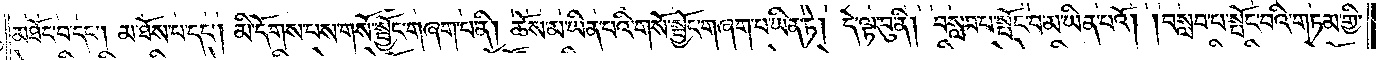མཐོང་བ་དང༌། མ་ཐོས་པ་དང༌། མི་དོགས་པས་གསོ་སྦྱོང་གཞག་པ་ནི། ཆོས་མ་ཡིན་པའི་གསོ་སྦྱོང་གཞག་པ་ཡིན་ཏེ། དེ་ལྟ་བུ་ནི། བསླབ་པ་སྤོང་བ་མ་ཡིན་པའོ། །བསླབ་པ་སྤོང་བའི་གཏམ་གྱི་
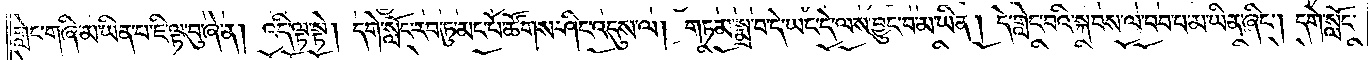གླེང་གཞི་མ་ཡིན་པ་ཇི་ལྟ་བུ་ཞེ་ན། འདི་ལྟ་སྟེ། དགེ་སློང་རབ་ཏུ་མང་པོ་ཚོགས་ཤིང་འདུས་ལ། གཏམ་སྨྲ་བ་དེ་ཡང་དེ་ལས་བྱུང་བ་མ་ཡིན། དེ་གླེང་བའི་སྐབས་ལ་བབ་པ་མ་ཡིན་ཞིང༌། དགེ་སློང་
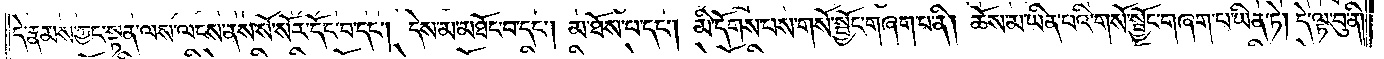དེ་རྣམས་ཀྱང་སྟན་ལས་ལངས་ནས་སོ་སོར་དོང་བ་དང༌། དེས་མ་མཐོང་བ་དང༌། མ་ཐོས་པ་དང༌། མི་དོགས་པས་གསོ་སྦྱོང་གཞག་པ་ནི། ཆོས་མ་ཡིན་པའི་གསོ་སྦྱོང་གཞག་པ་ཡིན་ཏེ། དེ་ལྟ་བུ་ནི།
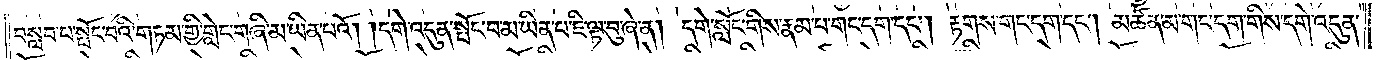བསླབ་པ་སྤོང་བའི་གཏམ་གྱི་གླེང་གཞི་མ་ཡིན་པའོ། །དགེ་འདུན་སྤོང་བ་མ་ཡིན་པ་ཇི་ལྟ་བུ་ཞེ་ན། དགེ་སློང་གིས་རྣམ་པ་གང་དག་དང༌། རྟགས་གང་དག་དང༌། མཚན་མ་གང་དག་གིས་དགེ་འདུན་
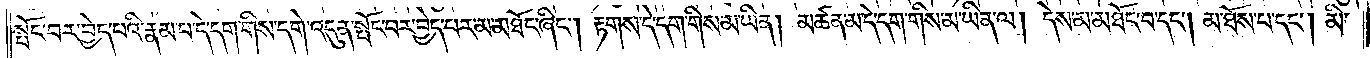སྤོང་བར་བྱེད་པའི་རྣམ་པ་དེ་དག་གིས་དགེ་འདུན་སྤོང་བར་བྱེད་པར་མ་མཐོང་ཞིང༌། རྟགས་དེ་དག་གིས་མ་ཡིན། མཚན་མ་དེ་དག་གིས་མ་ཡིན་ལ། དེས་མ་མཐོང་བ་དང༌། མ་ཐོས་པ་དང༌། མི་
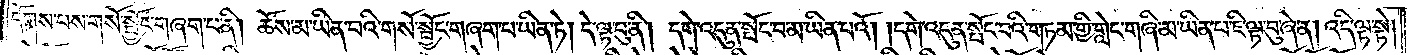དོགས་པས་གསོ་སྦྱོང་གཞག་པ་ནི། ཆོས་མ་ཡིན་པའི་གསོ་སྦྱོང་གཞག་པ་ཡིན་ཏེ། དེ་ལྟ་བུ་ནི། དགེ་འདུན་སྤོང་བ་མ་ཡིན་པའོ། །དགེ་འདུན་སྤོང་བའི་གཏམ་གྱི་གླེང་གཞི་མ་ཡིན་པ་ཇི་ལྟ་བུ་ཞེ་ན། འདི་ལྟ་སྟེ།
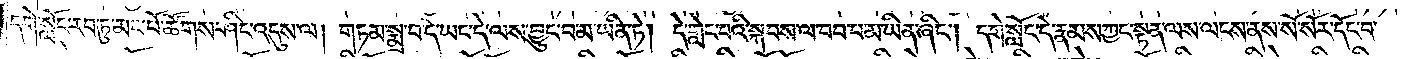དགེ་སློང་རབ་ཏུ་མང་པོ་ཚོགས་ཤིང་འདུས་ལ། གཏམ་སྨྲ་བ་དེ་ཡང་དེ་ལས་བྱུང་བ་མ་ཡིན་ཏེ། དེ་གླེང་བའི་སྐབས་ལ་བབ་པ་མ་ཡིན་ཞིང༌། དགེ་སློང་དེ་རྣམས་ཀྱང་སྟན་ལས་ལངས་ནས་སོ་སོར་དོང་བ་
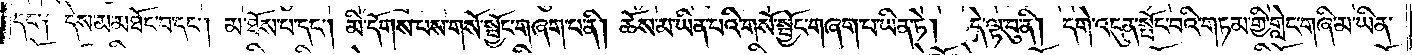དང༌། དེས་མ་མཐོང་བ་དང༌། མ་ཐོས་པ་དང༌། མི་དོགས་པས་གསོ་སྦྱོང་གཞག་པ་ནི། ཆོས་མ་ཡིན་པའི་གསོ་སྦྱོང་གཞག་པ་ཡིན་ཏེ། དེ་ལྟ་བུ་ནི། དགེ་འདུན་སྤོང་བའི་གཏམ་གྱི་གླེང་གཞི་མ་ཡིན་
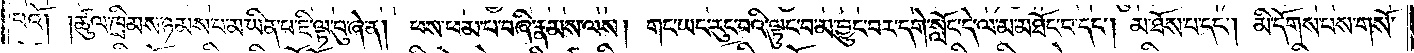པའོ། །ཚུལ་ཁྲིམས་ཉམས་པ་མ་ཡིན་པ་ཇི་ལྟ་བུ་ཞེ་ན། ཕས་ཕམ་པ་བཞི་རྣམས་ལས། གང་ཡང་རུང་བའི་ལྟུང་བ་མ་བྱུང་བར་དགེ་སློང་དེ་ལ་མ་མཐོང་བ་དང༌། མ་ཐོས་པ་དང༌། མི་དོགས་པས་གསོ་
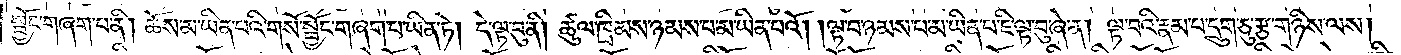སྦྱོང་གཞག་པ་ནི། ཆོས་མ་ཡིན་པའི་གསོ་སྦྱོང་གཞག་པ་ཡིན་ཏེ། དེ་ལྟ་བུ་ནི། ཚུལ་ཁྲིམས་ཉམས་པ་མ་ཡིན་པའོ། །ལྟ་བ་ཉམས་པ་མ་ཡིན་པ་ཇི་ལྟ་བུ་ཞེ་ན། ལྟ་བའི་རྣམ་པ་དྲུག་ཅུ་རྩ་གཉིས་ལས།
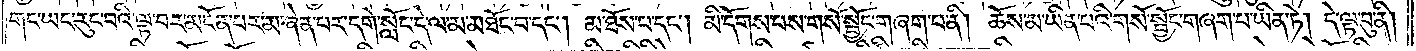གང་ཡང་རུང་བའི་ལྟ་བར་མངོན་པར་མ་ཞེན་པར་དགེ་སློང་དེ་ལ་མ་མཐོང་བ་དང༌། མ་ཐོས་པ་དང༌། མི་དོགས་པས་གསོ་སྦྱོང་གཞག་པ་ནི། ཆོས་མ་ཡིན་པའི་གསོ་སྦྱོང་གཞག་པ་ཡིན་ཏེ། དེ་ལྟ་བུ་ནི།
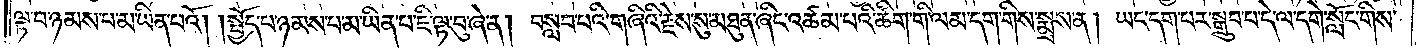ལྟ་བ་ཉམས་པ་མ་ཡིན་པའོ། །སྤྱོད་པ་ཉམས་པ་མ་ཡིན་པ་ཇི་ལྟ་བུ་ཞེ་ན། བསླབ་པའི་གཞི་རྗེས་སུ་མཐུན་ཞིང་འཚམ་པའི་ཚིག་གི་ལམ་དག་གིས་སྨྲས་ན། ཡང་དག་པར་སྒྲུབ་པ་དེ་ལ་དགེ་སློང་གིས་
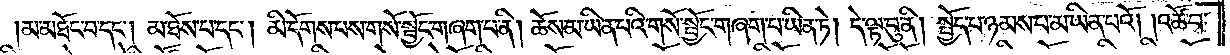མ་མཐོང་བ་དང༌། མ་ཐོས་པ་དང༌། མི་དོགས་པས་གསོ་སྦྱོང་གཞག་པ་ནི། ཆོས་མ་ཡིན་པའི་གསོ་སྦྱོང་གཞག་པ་ཡིན་ཏེ། དེ་ལྟ་བུ་ནི། སྤྱོད་པ་ཉམས་པ་མ་ཡིན་པའོ། །འཚོ་བ་
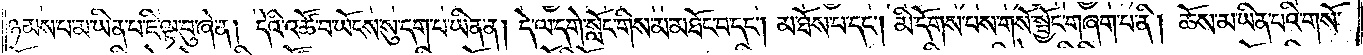ཉམས་པ་མ་ཡིན་པ་ཇི་ལྟ་བུ་ཞེ་ན། དེའི་འཚོ་བ་ཡོངས་སུ་དག་པ་ཡིན་ན། དེ་ལ་དགེ་སློང་གིས་མ་མཐོང་བ་དང༌། མ་ཐོས་པ་དང༌། མི་དོགས་པས་གསོ་སྦྱོང་གཞག་པ་ནི། ཆོས་མ་ཡིན་པའི་གསོ་
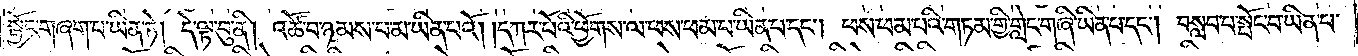སྦྱོང་གཞག་པ་ཡིན་ཏེ། དེ་ལྟ་བུ་ནི། འཚོ་བ་ཉམས་པ་མ་ཡིན་པའོ། །དཀར་པོའི་ཕྱོགས་ལ་ཕས་ཕམ་པ་ཡིན་པ་དང༌། ཕས་ཕམ་པའི་གཏམ་གྱི་གླེང་གཞི་ཡིན་པ་དང༌། བསླབ་པ་སྤོང་བ་ཡིན་པ་
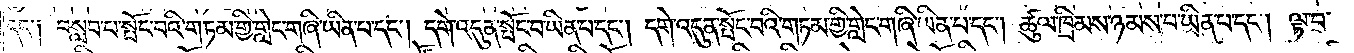དང༌། བསླབ་པ་སྤོང་བའི་གཏམ་གྱི་གླེང་གཞི་ཡིན་པ་དང༌། དགེ་འདུན་སྤོང་བ་ཡིན་པ་དང༌། དགེ་འདུན་སྤོང་བའི་གཏམ་གྱི་གླེང་གཞི་ཡིན་པ་དང༌། ཚུལ་ཁྲིམས་ཉམས་པ་ཡིན་པ་དང༌། ལྟ་བ་
